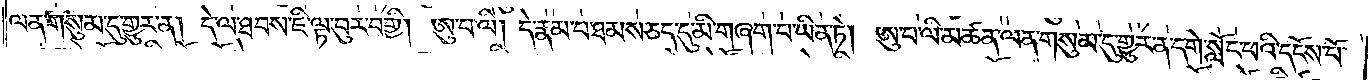ལན་གསུམ་དུ་གྱུར་ན། དེ་ལ་ཐབས་ཇི་ལྟ་བུར་བགྱི། ཨུ་པ་ལི། དེ་རྣམ་པ་ཐམས་ཅད་དུ་མི་གཞག་པ་ཡིན་ཏེ། ཨུ་པ་ལི་མཚན་ལན་གསུམ་དུ་གྱུར་ན་དགེ་སློང་ཕའི་དངོས་པོ་
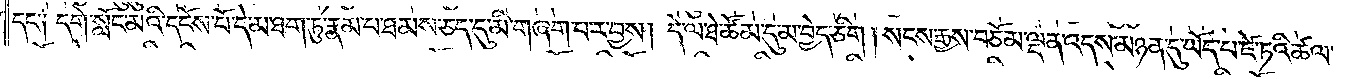དང༌༑ དགེ་སློང་མའི་དངོས་པོ་དེ་མ་ཐག་ཏུ་རྣམ་པ་ཐམས་ཅད་དུ་མི་གཞག་པར་བྱས། དེ་ལ་ཐེ་ཚོམ་དུ་མ་བྱེད་ཅིག། སངས་རྒྱས་བཅོམ་ལྡན་འདས་མཉན་དུ་ཡོད་པ་ཛེ་ཏའི་ཚལ་
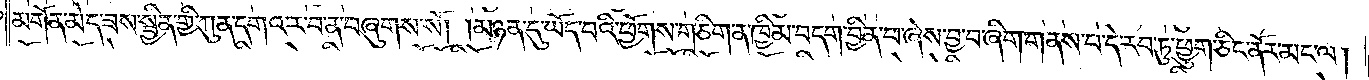མགོན་མེད་ཟས་སྦྱིན་གྱི་ཀུན་དགའ་ར་བ་ན་བཞུགས་སོ། །མཉན་དུ་ཡོད་པའི་ཕྱོགས་གཅིག་ན་ཁྱིམ་བདག་བྱིན་པ་ཞེས་བྱ་བ་ཞིག་གནས་པ་དེ་རབ་ཏུ་ཕྱུག་ཅིང་ནོར་མང་ལ།
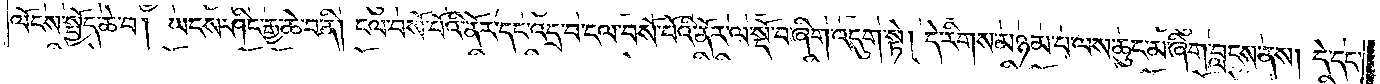ལོངས་སྤྱོད་ཆེ་བ། ཡངས་ཤིང་རྒྱ་ཆེ་བ་ནི། ངལ་བསོ་པོའི་ནོར་དང་འདྲ་བ་ངལ་བསོ་པོའི་ནོར་ལ་སྡོ་བ་ཞིག་འདུག་སྟེ། དེ་རིགས་མཉམ་པ་ལས་ཆུང་མ་ཞིག་བླངས་ནས། དེ་དང་
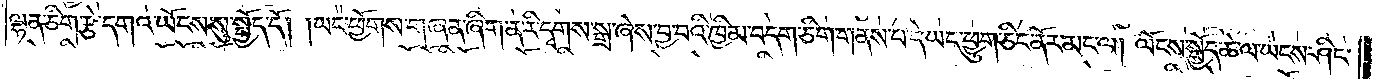ལྷན་ཅིག་ཙེ་དགའ་ཡོངས་སུ་སྤྱོད་དོ། །ཡང་ཕྱོགས་གཞན་ཞིག་ན་རི་དྭགས་སྒྲ་ཞེས་བྱ་བའི་ཁྱིམ་བདག་ཅིག་གནས་པ་དེ་ཡང་ཕྱུག་ཅིང་ནོར་མང་ལ། ལོངས་སྤྱོད་ཆེ་ལ་ཡངས་ཤིང་
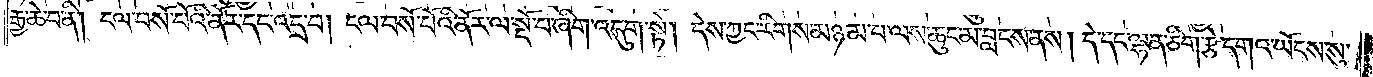རྒྱ་ཆེ་བ་ནི། ངལ་བསོ་པོའི་ནོར་དང་འདྲ་བ། ངལ་བསོ་པོའི་ནོར་ལ་སྔོ་པ་ཞིག་འདུག་སྟེ། དེས་ཀྱང་རིགས་མཉམ་པ་ལས་ཆུང་མ་བླངས་ནས། དེ་དང་ལྷན་ཅིག་རྩེ་དགའ་ཡོངས་སུ་
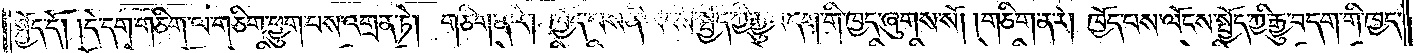སྤྱོད་དོ། །དེ་དག་གཅིག་ལ་གཅིག་ཕྱུག་པས་འགྲན་ཏེ། གཅིག་ན་རེ། ཁྱོད་པས་ནི་ལོངས་སྤྱོད་ཀྱི་རྒྱུ་བདག་གི་ཁྱད་ཞུགས་སོ། །གཅིག་ན་རེ། ཁྱོད་པས་ལོངས་སྤྱོད་ཀྱི་རྒྱུ་བདག་གི་ཁྱད་
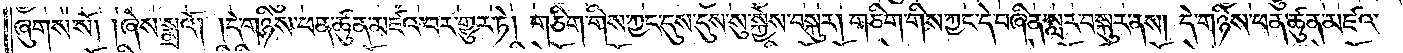ཞུགས་སོ། །ཞེས་སྨྲའོ། །དེ་གཉིས་ཕན་ཚུན་མཛའ་བར་གྱུར་ཏེ། གཅིག་གིས་ཀྱང་དུས་དུས་སུ་སྐྱེས་བསྐུར། གཅིག་གིས་ཀྱང་དེ་བཞིན་སླར་བསྐུར་ནས། དེ་གཉིས་ཕན་ཚུན་མཛའ་
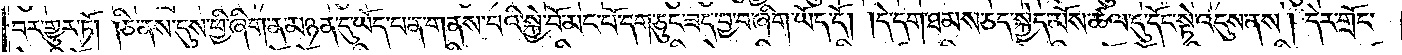བར་གྱུར་ཏོ། །ཅི་ནས་དུས་ཕྱི་ཞིག་ན་མཉན་དུ་ཡོད་པ་ན་གནས་པའི་སྐྱེ་བོ་མང་པོ་དག་ཅུང་ཟད་བྱ་བ་ཞིག་ཡོད་དོ། དེ་དག་ཐམས་ཅད་སྐྱེད་མོས་ཚལ་དུ་དོང་སྟེ་འདུས་ནས། དེར་གྲོང་
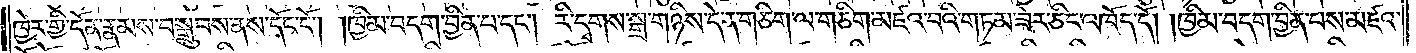ཁྱེར་གྱི་དོན་རྣམས་བསྒྲུབས་ནས་དོང་ངོ༌། །ཁྱིམ་བདག་བྱིན་པ་དང༌། རི་དྭགས་སྒྲ་གཉིས་དེ་ན་གཅིག་ལ་གཅིག་མཛའ་བའི་གཏམ་ཟེར་ཅིང་འཁོད་དོ། །ཁྱིམ་བདག་བྱིན་པས་མཛའ་
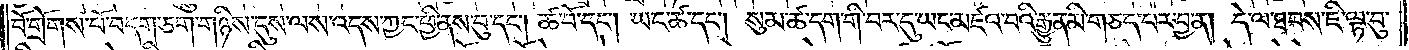བོ་གྲོགས་པོ་བདག་ཅག་གཉིས་དུས་ལས་འདས་ཀྱང་ཕྱི་ནས་བུ་དང༌། ཚ་བོ་དང༌། ཡང་ཚ་དང༌། སུམ་ཚ་དག་གི་བར་དུ་ཡང་མཛའ་བའི་རྒྱུན་མི་གཅད་པར་བྱ་ན། དེ་ལ་ཐབས་ཇི་ལྟ་བུ་
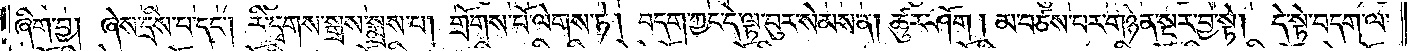ཞིག་བྱ། ཞེས་དྲིས་པ་དང༌། རི་དྭགས་སྒྲས་སྨྲས་པ། གྲོགས་པོ་ལེགས་ཏེ། བདག་ཀྱང་ལྟ་བུར་སེམས་ན། ཚུར་ཤོག། མ་བཙས་པར་གཉེན་སྔར་བྱ་སྟེ། དེ་སྟེ་བདག་ལ་
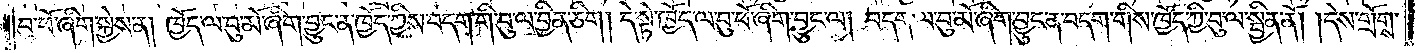བུ་ཕོ་ཞིག་སྐྱེས་ན། ཁྱོད་ལ་བུ་མོ་ཞིག་བྱུང་ན་ཁྱོད་ཀྱིས་བདག་གི་བུ་ལ་བྱིན་ཅིག །དེ་སྟེ་ཁྱོད་ལ་བུ་ཕོ་ཞིག་བྱུང་ལ། བདག་ལ་བུ་མོ་ཞིག་བྱུང་ན་བདག་གིས་ཁྱོད་ཀྱི་བུ་ལ་སྦྱིན་ནོ། །དེས་གྲོགས་
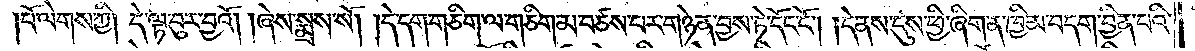པོ་ལེགས་ཀྱི། དེ་ལྟ་བུར་བྱའོ། །ཞེས་སྨྲས་སོ། །དེ་དག་གཅིག་ལ་གཅིག་མ་བཙས་པར་གཉེན་བྱས་ཏེ་དོང་ངོ༌། །དེ་ནས་དུས་ཕྱི་ཞིག་ན་ཁྱིམ་བདག་བྱིན་པའི་
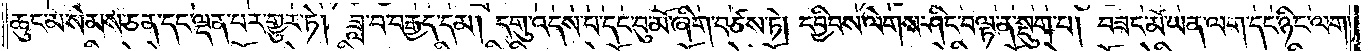ཆུང་མ་སེམས་ཅན་དང་ལྡན་པར་གྱུར་ཏེ། ཟླ་བ་བརྒྱད་དམ། དགུ་འདས་པ་དང་བུ་མོ་ཞིག་བཙས་ཏེ། དབྱིབས་ལེགས་ཤིང་བལྟ་ན་སྡུག་པ། བཟང་མོ་ཡན་ལག་དང་ཉིང་ལག་
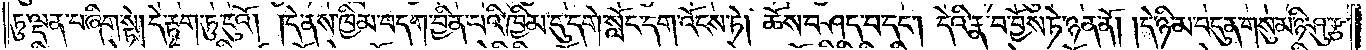ཏུ་ལྡན་པ་ཞིག་སྟེ། དེ་རྟག་ཏུ་ངུའོ། །དེ་ནས་ཁྱིམ་བདག་བྱིན་པའི་ཁྱིམ་དུ་དགེ་སློང་དག་འོངས་ཏེ། ཆོས་བཤད་པ་དང༌། དེའི་རྣ་བ་བྱོས་ཏེ་ཉན་ནོ། །དེ་ཉི་མ་བདུན་གསུམ་ཉི་ཤུ་རྩ་
